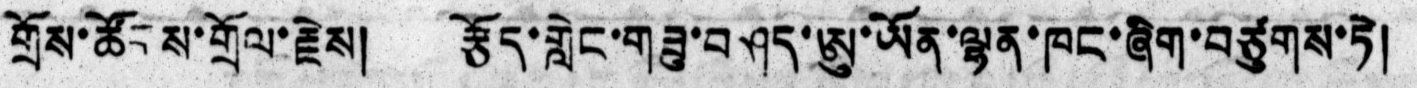གྲོས་ཚོངས་གྲོལ་རྗེས། རྩོད་གླེང་གཟུ་བཤད་ཨུ་ཡོན་ལྷན་ཁང་ཞིག་བཙུགས་ཏེ།
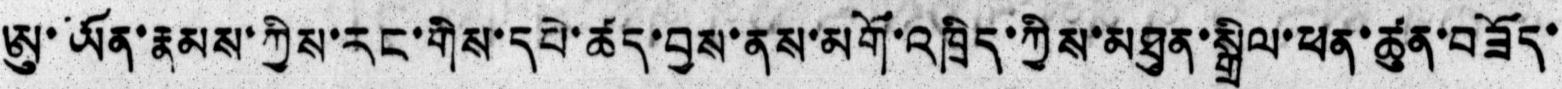ཨུ་ཡོན་རྣམས་ཀྱིས་རང་གིས་དཔེ་ཚད་བྱས་ནས་མགོ་འཁྲིད་ཀྱིས་མཐུན་སྒྲིལ་ཕན་ཚུན་བཟོད་
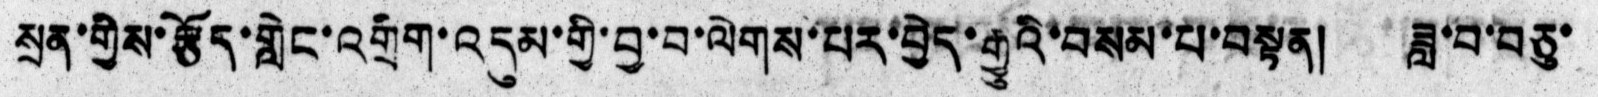སྲན་གྱིས་རྩོད་གླེང་འགྲིག་འདུམ་གྱི་བྱ་བ་ལེགས་པར་བྱེད་རྒྱུའི་བསམ་པ་བསྟན། ཟླ་བ་བཅུ་
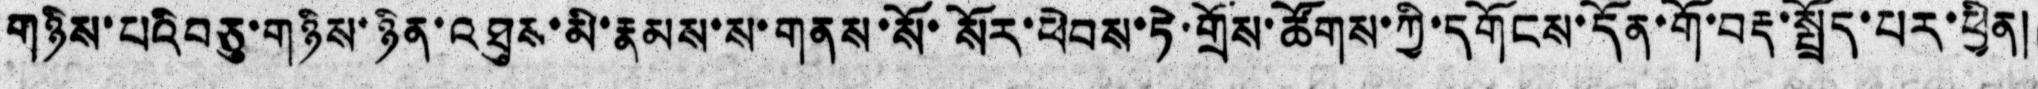གཉིས་པའི བཅུ་གཉིས་ཉིན་འཐུས་མི་རྣམས་ས་གནས་སོ་སོར་ཕེབས་ཏེ་གྲོས་ཚོགས་ཀྱི་དགོངས་དོན་གོ་བརྡ་སྤྲོད་པར་ཕྱིན།
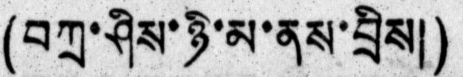(བཀྲ་ཤིས་ཉི་མ་ནས་བྲིས།)
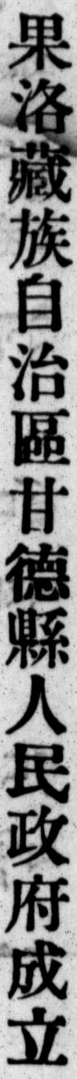果洛藏族自治區甘德縣人民政府成立
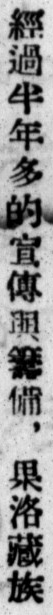經過半年多的宣傳與籌備，果洛藏族
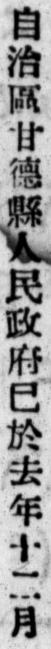自治區甘德縣人民政府已於去年十二月
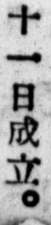十一日成立。
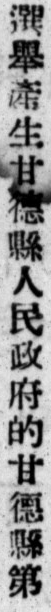選舉產生甘德縣人民政府的甘德縣第
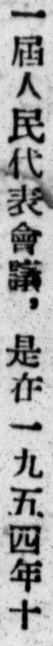一屆人民代表會議，是在一九五四年十
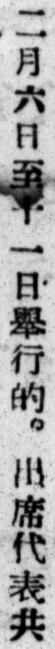二月六日至十一日舉行的。出席代表共
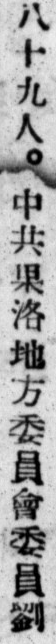八十九人。中共果洛地方委員會委員劉
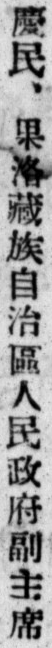慶民，果洛藏族自治區人民政府副主席
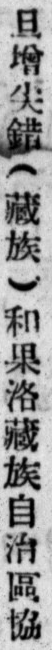旦增尖錯（藏族）和果洛藏族自治區協
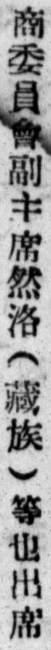商委員會副主席然洛（藏族）等也出席
